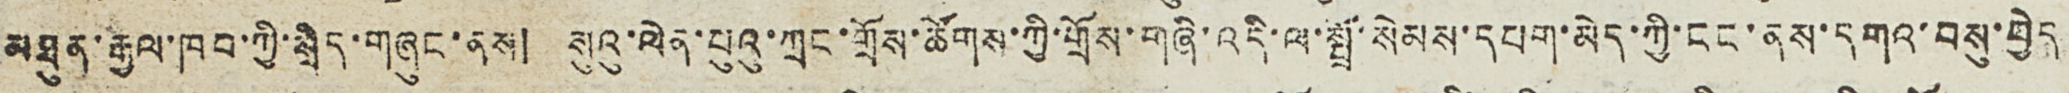མཐུན་རྒྱལ་ཁབ་ཀྱི་སྲིད་གཞུང་ནས། སུའུ་ལེན་པུའུ་ཀྲང་གྲོས་ཚོགས་ཀྱི་གྲོས་གཞི་འདི་ལ་སྤྲོ་སེམས་དཔག་མེད་ཀྱི་ངང་ནས་དགའ་བསུ་བྱེད
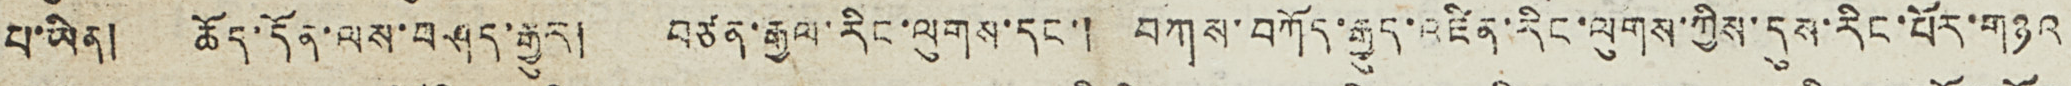པ་ཡིན། ཆོད་དོན་ལས་བཤད་རྒྱུར། བཙན་རྒྱལ་རིང་ལུགས་དང་། བཀས་བཀོད་རྒྱུད་འཛིན་རིང་ལུགས་ཀྱིས་དུས་རིང་པོར་གཉའ
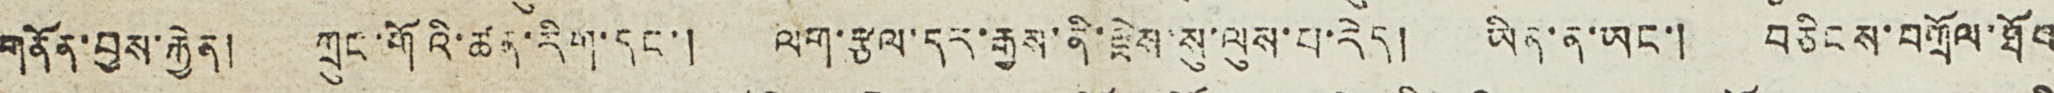གནོན་བྱས་རྐྱེན། ཀྲུང་གོའི་ཚན་རིག་དང་། ལག་རྩལ་དར་རྒྱས་ནི་རྗེས་སུ་ལུས་པ་རེད། ཡིན་ན་ཡང་། བཅིངས་བཀྲོལ་ཐོབ
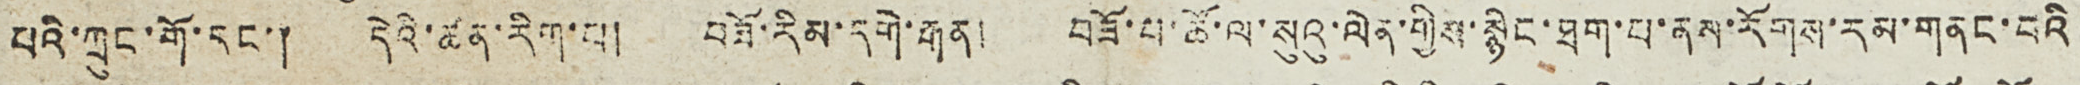པའི་ཀྲུང་གོ་དང་། དེའི་ཚན་རིག་པ། བཟོ་རིམ་དགེ་རྒན། བཟོ་པ་ཚོ་ལ་སུའུ་ལེན་གྱིས་སྙིང་ཐག་པ་ནས་རོགས་རམ་གནང་བའི
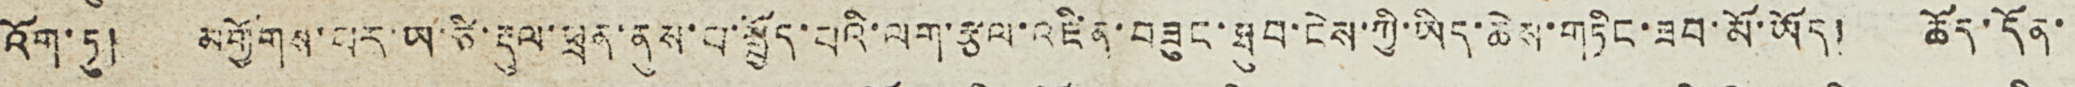འོག་ཏུ། མགྱོགས་པར་ཡ་ཙི་རྡུལ་ཕྲན་ནུས་པ་སྤྱོད་པའི་ལག་རྩལ་འཛིན་བཟུང་ཐུབ་ངེས་ཀྱི་ཡིད་ཆེས་གཏིང་ཟབ་མོ་ཡོད། ཆོད་དོན་
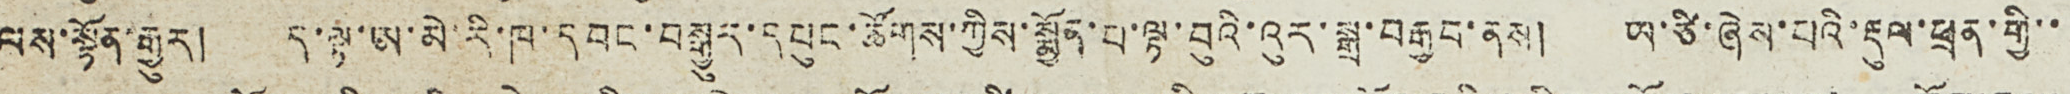ལས་སྟོན་རྒྱུར། ད་ལྟ་ཨ་མེ་རི་ཁ་དབང་བསྒྱུར་དཔུང་ཚོགས་ཀྱིས་སྨྱོན་པ་ལྟ་བུའི་འུར་སྒྲ་བརྒྱབ་ནས། ཡ་ཙི་ཞེས་པའི་རྡུལ་ཕྲན་གྱི་་
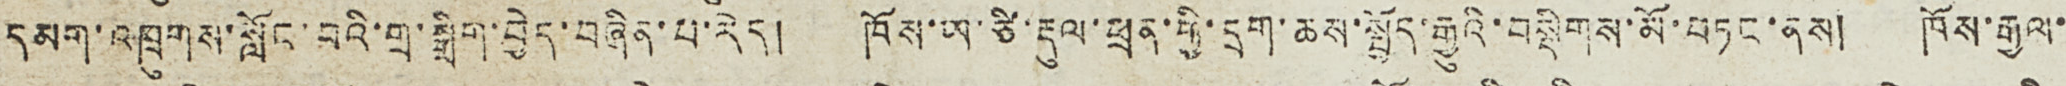དམག་འཁྲུགས་སློང་བའི་གྲ་སྒྲིག་བྱེད་བཞིན་པ་རེད། ཁོས་ཡ་ཙི་རྡུལ་ཕྲན་གྱི་དྲག་ཆས་སྤྱོད་རྒྱུའི་བསྡིགས་མོ་བཏང་ནས། ཁོས་རྒྱལ་
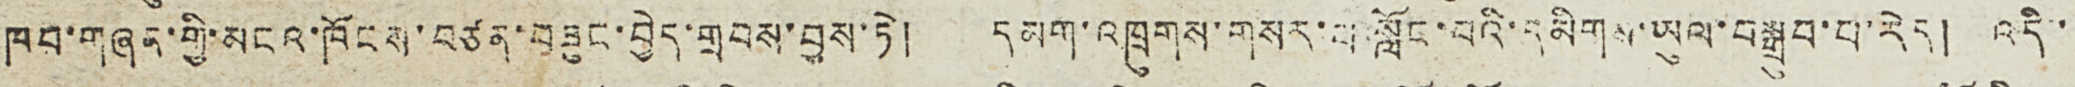ཁབ་གཞན་གྱི་མངའ་ཁོངས་བཙན་བཟུང་བྱེད་གྲབས་བྱས་ཏེ། དམག་འཁྲུགས་གསར་པ་སློང་བའི་དམིགས་ཡུལ་བསྒྲུབ་པ་རེད། འདི་
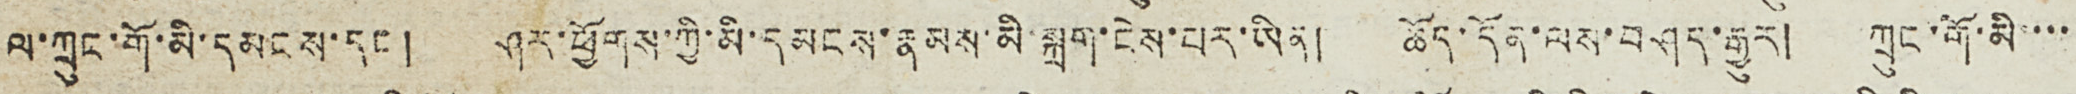ལ་ཀྲུང་གོ་མི་དམངས་དང ། ཤར་ཕྱོགས་ཀྱི་མི་དམངས་རྣམས་མི་སྐྲག་ངེས་པར་ཡིན། ཆོད་དོན་ལས་བཤད་རྒྱུར། ཀྲུང་གོ་མི་་་་
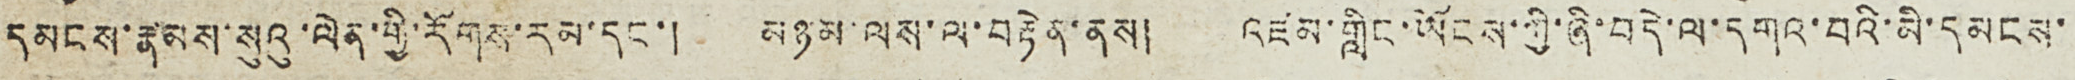དམངས་རྣམས་སུའུ་ལེན་གྱི་རོགས་རམ་དང་། མཉམ་ལས་ལ་བརྟེན་ནས། འཛམ་གླིང་ཡོངས་ཀྱི་ཞི་བདེ་ལ་དགའ་བའི་མི་དམངས་
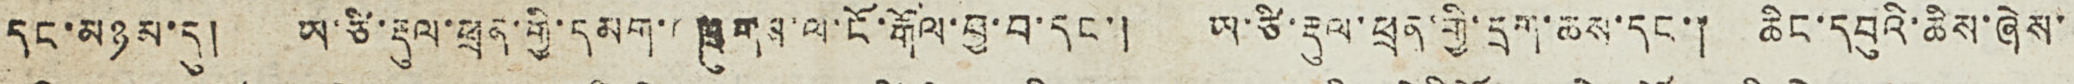དང་མཉམ་དུ། ཡ་ཙི་རྡུལ་ཕྲན་གྱི་དམག་འཁྲུགས་ལ་ངོ་རྒོལ་བྱ་བ་དང་། ཡ་ཙི་རྡུལ་ཕྲན་གྱི་དྲག་ཆས་དང་། ཆིང་དབུའི་ཆིས་ཞེས་
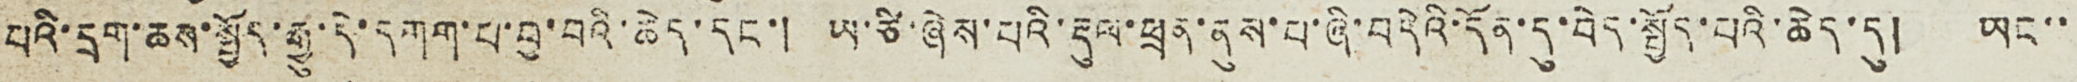པའི་དྲག་ཆས་སྤྱོད་རྒྱུ་དེ་དགག་པ་བྱ་བའི་ཆེད་དང་། ཡ་ཙི་ཞེས་པའི་རྡུལ་ཕྲན་ནུས་པ་ཞི་བདེའི་དོན་དུ་བེད་སྤྱོད་པའི་ཆེད་དུ། ཡང་་
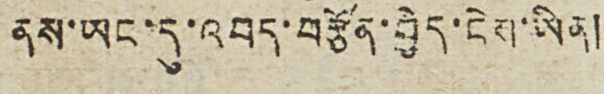ནས་ཡང་དུ་འབད་བརྩོན་བྱེད་ངེས་ཡིན།
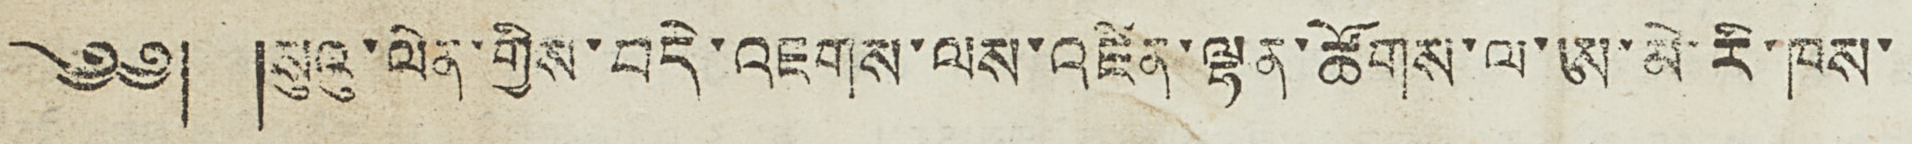༄༅། །སུའུ་ལེན་གྱིས་བདེ་འཇགས་ལས་འཛིན་ལྷན་ཚོགས་ལ་ཨ་མེ་རི་ཁས་
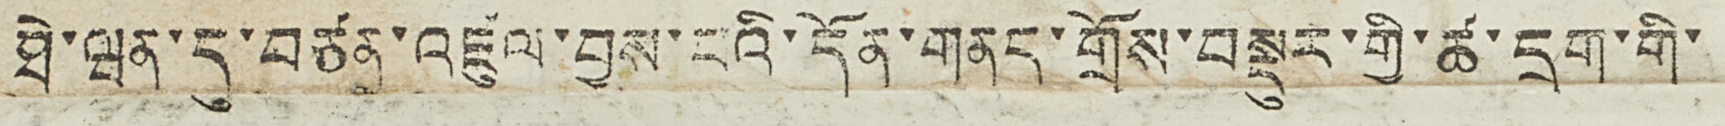ཐེ་ཝན་དུ་བཙན་འཛུལ་བྱས་པའི་དོན་གནད་གྲོས་བསྡུར་གྱི་ཚ་དྲག་གི་
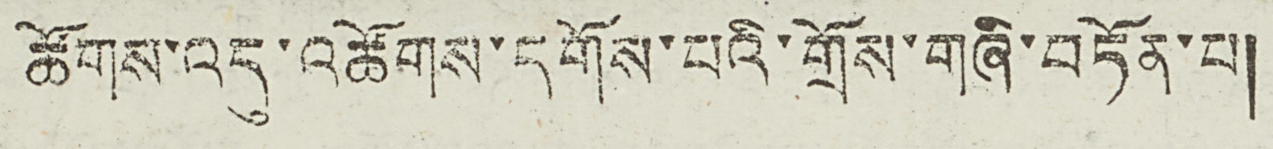ཚོགས་འདུ་འཚོགས་དགོས་པའི་གྲོས་གཞི་བཏོན་པ།
